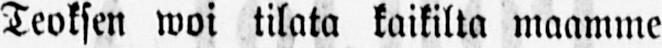Teoksen woi tilata kaikilta maamme
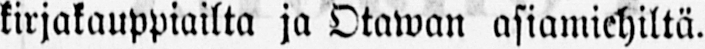kirjakauppiailta ja Otawan asiamiehiltä.
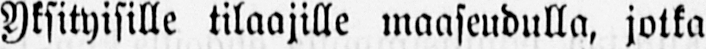Yksityisille tilaajille maaseudulla, jotka
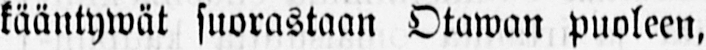kääntywät suorastaan Otawan puoleen,
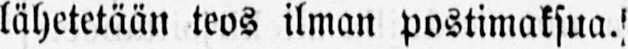lähetetään teos ilman postimaksua.
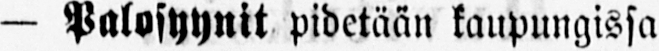— Palosyynit pidetään kaupungissa
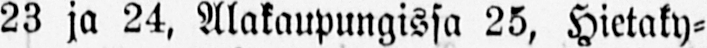23 ja 24, Alakaupungissa 25, Hietaky-
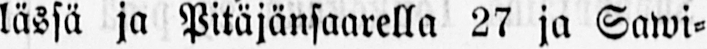kässä ja Pitäjänsaarella 27 ja Sawi-
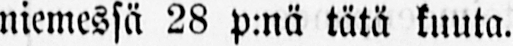niemessä 28 p:nä tätä kuuta.
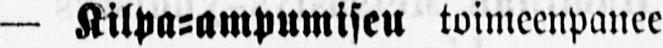— Kilpa-ampumiseu toimeenpanee
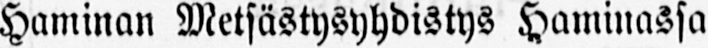Haminan Metsästysyhdistys Haminassa
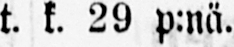t. k. 29 p:nä.
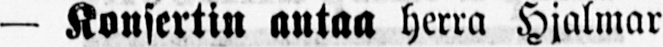— Konsertin antaa herra Hjalmar
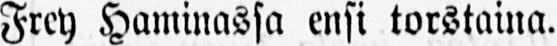Frey Haminassa ensi torstaina.
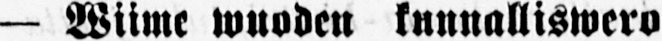— Wiime wuoden kunnalliswero
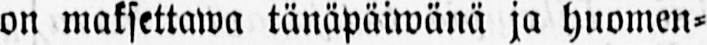on maksettawa tänäpäiwänä ja huomen-
